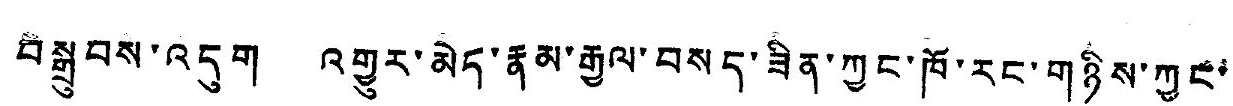བསྒྲུབས་འདུག འགྱུར་མེད་རྣམ་རྒྱལ་བསད་ཟིན་ཀྱང་ཁོ་རང་གཉིས་ཀྱང་
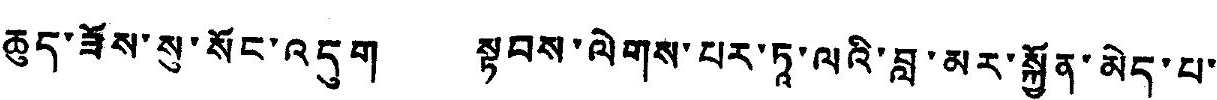ཆུད་ཟོས་སུ་སོང་འདུག སྟབས་ལེགས་པར་ཏའ་ལའི་བླ་མར་སྐྱོན་མེད་པ་
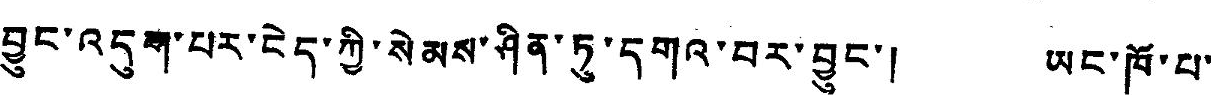བྱུང་འདུག་པར་ངེད་ཀྱི་སེམས་ཤིན་ཏུ་དགའ་བར་བྱུང་། ཡང་ཁོ་པ་
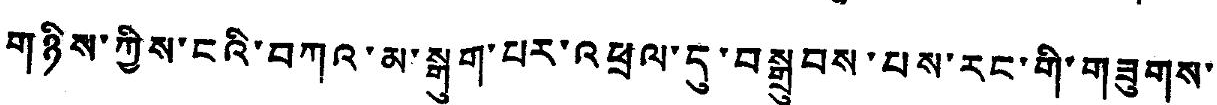གཉིས་ཀྱིས་ངའི་བཀའ་མ་སྒུག་པར་འཕྲལ་དུ་བསྒྲུབས་པས་རང་གི་གཟུགས་
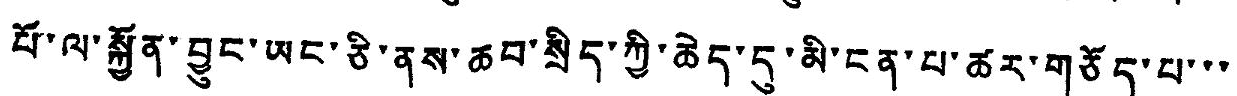པོ་ལ་སྐྱོན་བྱུང་ཡང་ཅི་ནས་ཆབ་སྲིད་ཀྱི་ཆེད་དུ་མི་ངན་པ་ཚར་གཅོད་པ་་་
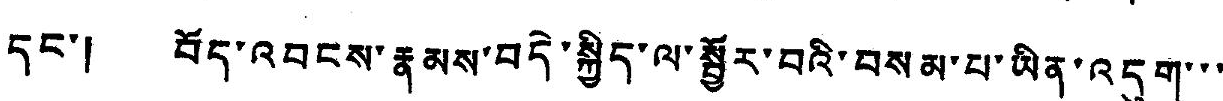དང་། བོད་འབངས་རྣམས་བདེ་སྐྱིད་ལ་སྦྱོར་བའི་བསམ་པ་ཡིན་འདུག་་་
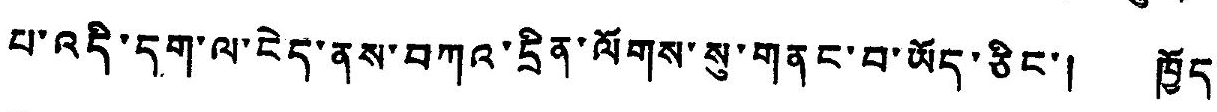པ་འདི་དག་ལ་ངེད་ནས་བཀའ་དྲིན་ལོགས་སུ་གནང་བ་ཡོད་ཅིང་། ཁྱོད་
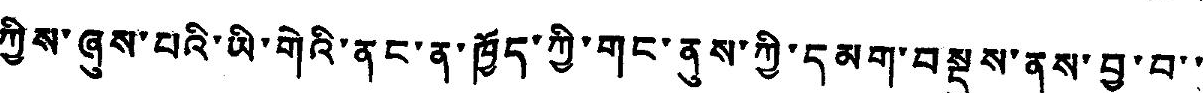ཀྱིས་ཞུས་པའི་ཡི་གེའི་ནང་ན་ཁྱོད་ཀྱི་གང་ནུས་ཀྱི་དམག་བསྡུས་ནས་བྱ་བ་་
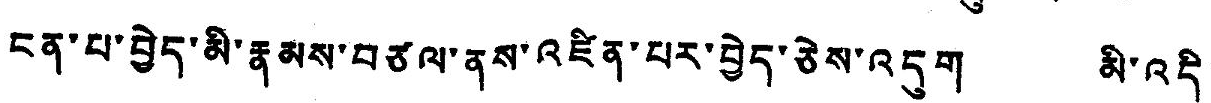ངན་པ་བྱེད་མི་རྣམས་བཙལ་ནས་འཛིན་པར་བྱེད་ཅེས་འདུག མི་འདི་
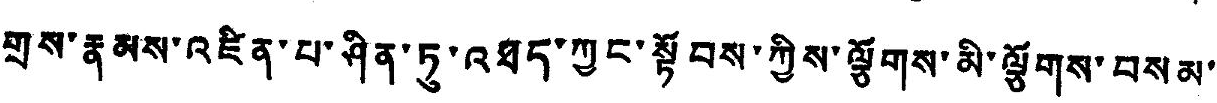གྲས་རྣམས་འཛིན་པ་ཤིན་ཏུ་འཐད་ཀྱང་སྟོབས་ཀྱིས་ལྕོགས་མི་ལྕོགས་བསམ་
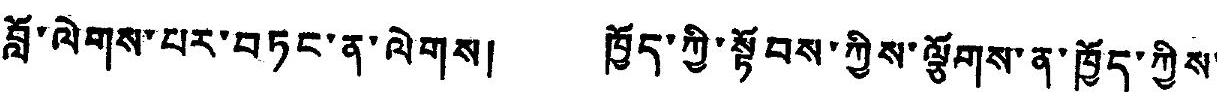བློ་ལེགས་པར་བཏང་ན་ལེགས། ཁྱོད་ཀྱི་སྟོབས་ཀྱིས་ལྕོགས་ན་ཁྱོད་ཀྱིས་
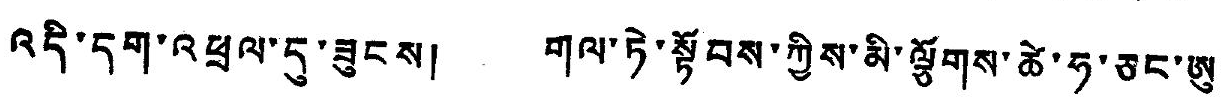འདི་དག་འཕྲལ་དུ་ཟུངས། གལ་ཏེ་སྟོབས་ཀྱིས་མི་ལྕོགས་ཚེ་ཧ་ཅང་ཨུ་
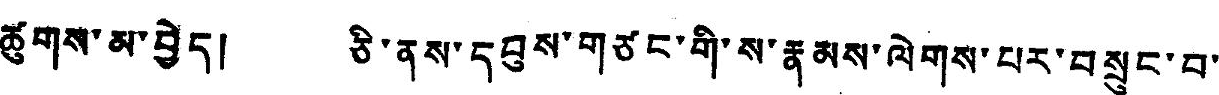ཚུགས་མ་བྱེད། ཅི་ནས་དབུས་གཙང་གི་ས་རྣམས་ལེགས་པར་བསྲུང་བ་
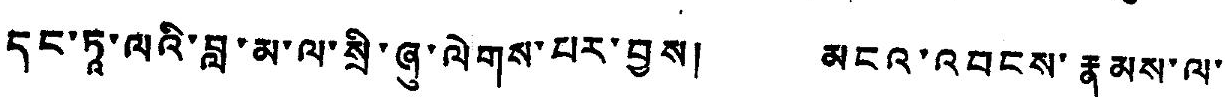དང་ཏའ་ལའི་བླ་མ་ལ་སྲི་ཞུ་ལེགས་པར་བྱས། མངའ་འབངས་རྣམས་ལ་
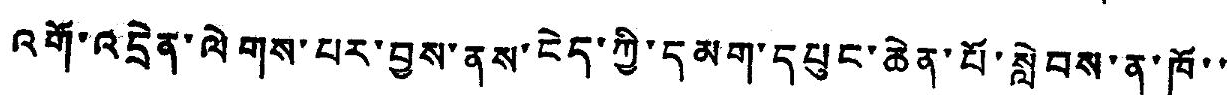འགོ་འདྲེན་ལེགས་པར་བྱས་ནས་ངེད་ཀྱི་དམག་དཔུང་ཆེན་པོ་སླེབས་ན་ཁོ་་
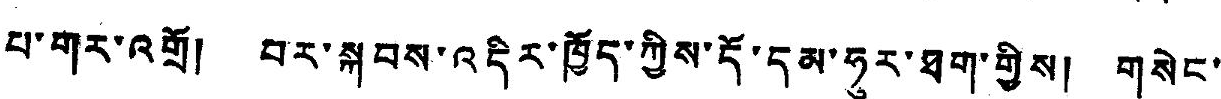པར་གར་འགྲོ་།་བར་སྐབས་འདིར་ཁྱོད་ཀྱིས་དོ་དམ་ཧུར་ཐག་གྱིས། གསེང་
